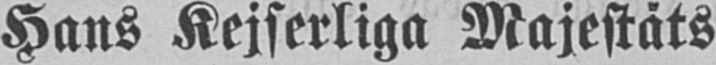Hans Kejserliga Majestäts
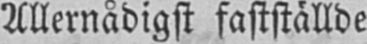Allernådigst fastställde
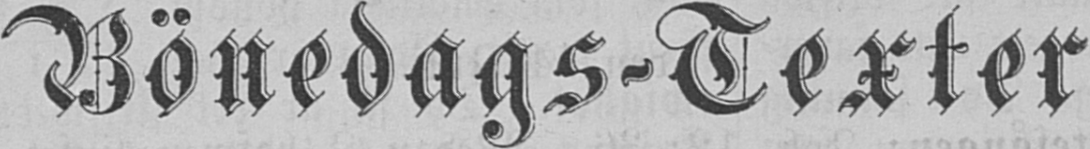Bönedags-Texter
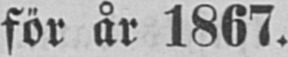för år 1867.
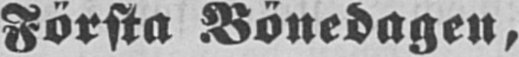Första Bönedagen,
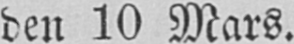den 10 Mars.
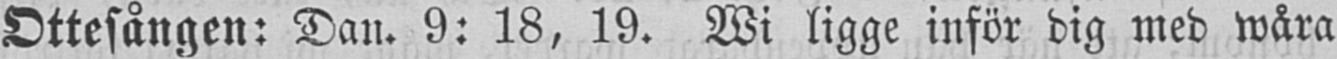Ottesången: Dan. 9: 18, 19. Wi ligge inför dig med wåra
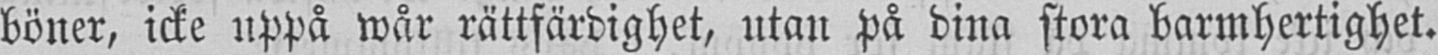böner, icke uppå wår rättfärdighet, utan på dina stora barmhertighet.
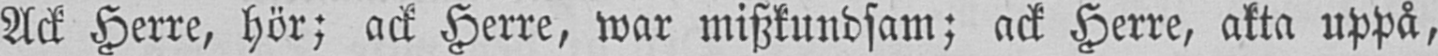Ack Herre, hör; ack Herre, war miszkundsam; ack Herre, akta uppå,
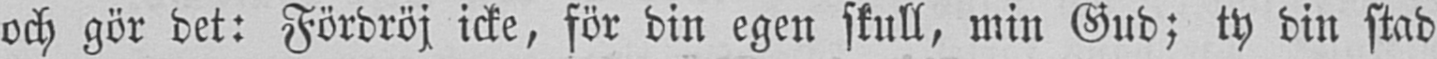och gör det: Fördröj icke, för din egen skull, min Gud; ty din stad
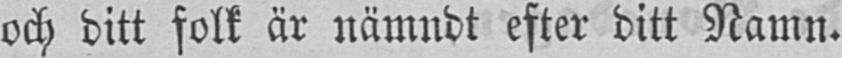och ditt folk är nämndt efter ditt Namn.
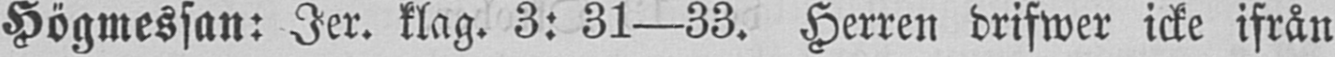Högmessan: Jer. klag. 3: 31—33. Herren drifwer icke ifrån
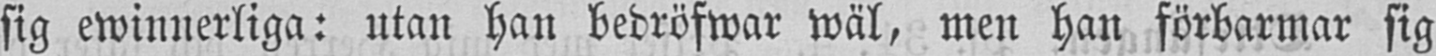sig ewinnerliga: utan han bedröfwar wäl, men han förbarmar sig
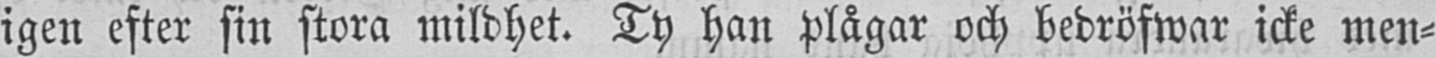igen efter sin stora mildhet. Ty han plågar och bedröfwar icke men-
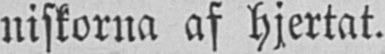niskorna af hjertat.
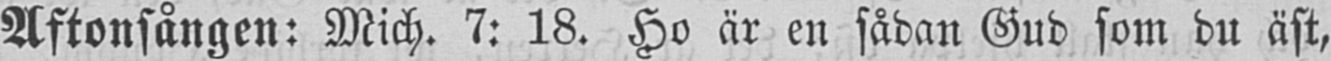Aftonsången: Mich. 7: 18. Ho är en sådan Gud som du äst,
